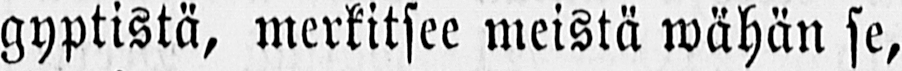gyptistä, merkitsee meistä wähän se,
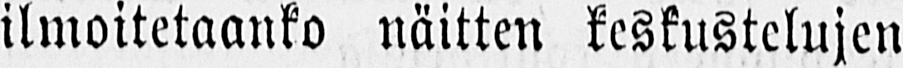ilmoitetaanko näitten keskustelujen
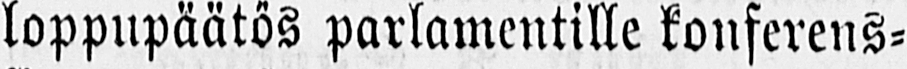loppupäätös parlamentille konferens-
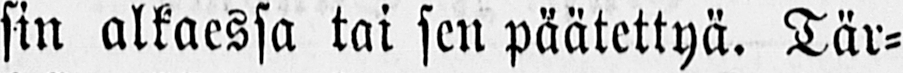sin alkaessa tai sen päätettyä. Tär-
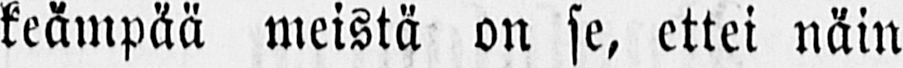keämpää meistä on se, ettei näin
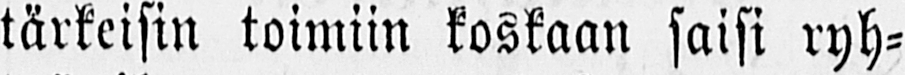tärkeisin toimiin koskaan saisi ryh-
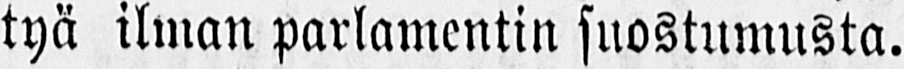tyä ilman parlamentin suostumusta.
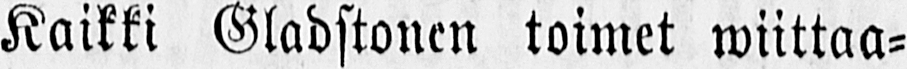Kaikki Gladstonen toimet wiittaa-
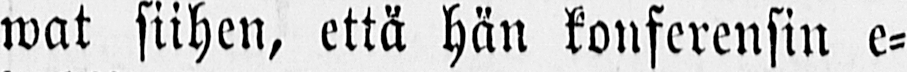wat siihen, että hän konferensin e-
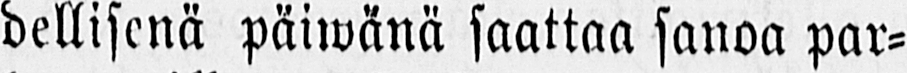dellisenä päiwänä saattaa sanoa par-
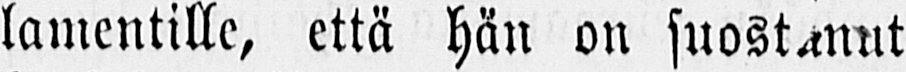lamentille, että hän on suostunut
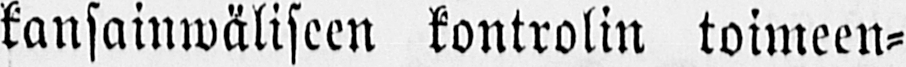kansainwäliseen kontrolin toimeen-
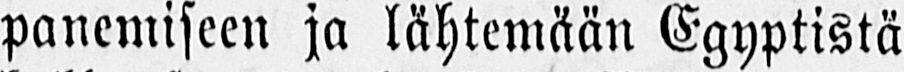panemiseen ja lähtemään Egyptistä
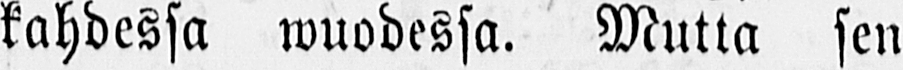kahdessa wuodessa. Mutta sen
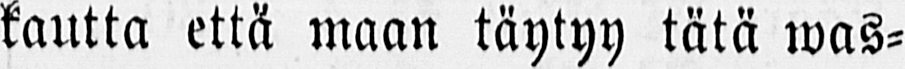kautta että maan täytyy tätä was-
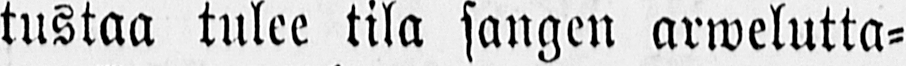tustaa tulee tila sangen arwelutta-
